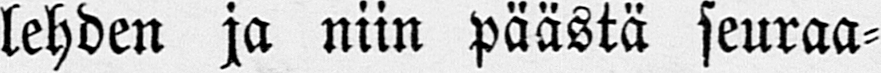lehden ja niin päästä seuraa-
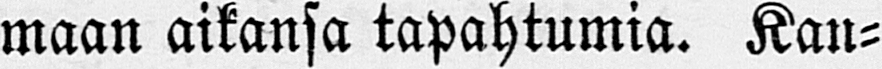maan aikansa tapahtumia. Kan-
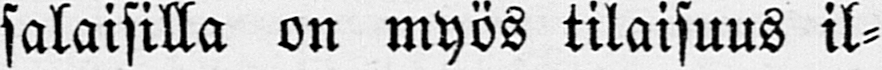salaisilla on myös tilaisuus il-
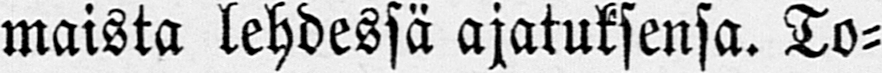maista lehdessä ajatuksensa. To-
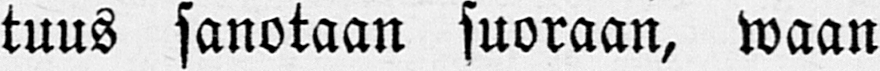tuus sanotaan suoraan, waan
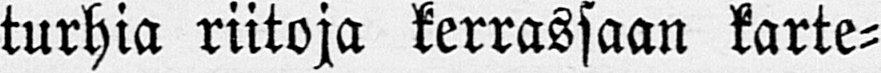turhia riitoja kerrassaan karte-
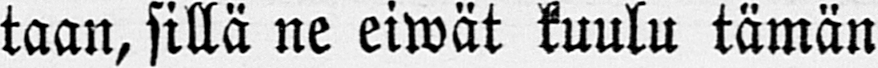taan, sillä ne eiwät kuulu tämän
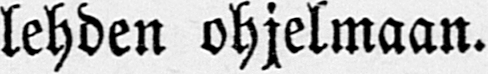lehden ohjelmaan.
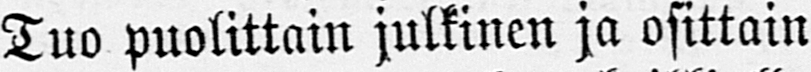Tuo puolittain julkinen ja osittain
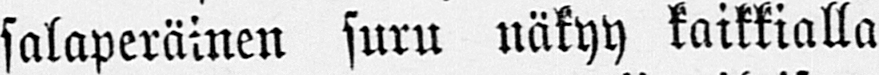salaperäinen suru näkyy kaikkialla
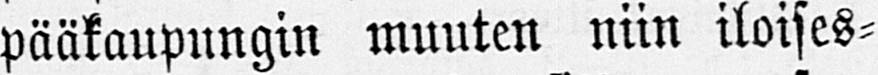pääkaupungin muuten niin iloises-
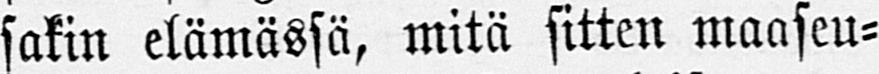sakin elämässä, mitä sitten maaseu-
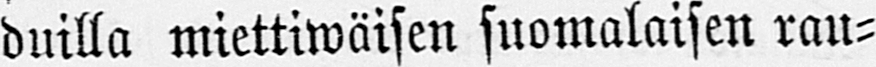duilla miettiwäisen suomalaisen rau-
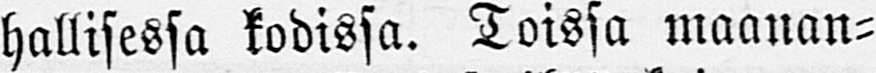hallisessa kodissa. Toissa maanan-
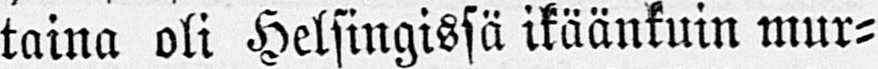taina oli Helsingissä ikäänkuin mur-
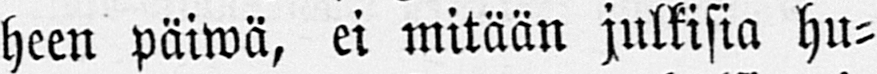heen päiwä, ei mitään julkisia hu-
